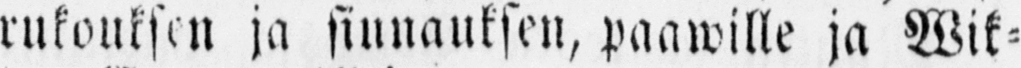rukouksen ja siunauksen, paawille ja Wik-
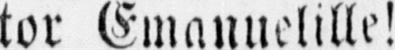tor Emanuelille!
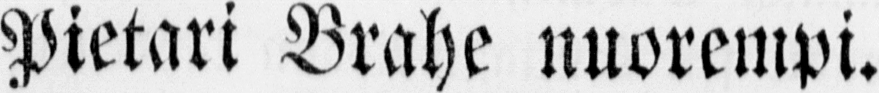Pietari Brahe nuorempi.
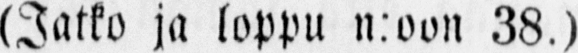(Jatko ja loppu n:oon 38.)
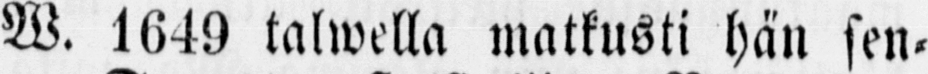W. 1649 talwella matkusti hän sen-
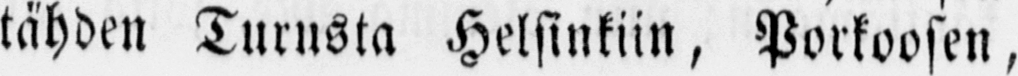tähden Turusta Helsinkiin, Porkoosen,
